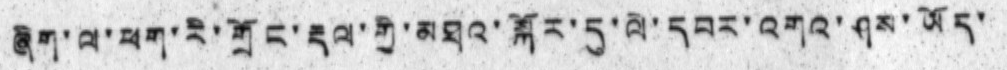ཞིག་ལ་ཕག་རི་གྲོང་རྡལ་གྱི་མཐའ་སྐོར་དུ་ལེ་དབར་འགའ་ཤས་ཡོད་
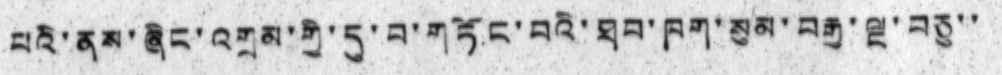པའི་ནས་ཞིང་འགྲམ་གྱི་དུ་བ་གཏོང་བའི་ཐབ་ཁག་སུམ་བརྒྱ་ལྔ་བཅུ་་
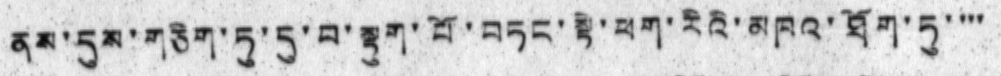ནས་དུས་གཅིག་ཏུ་དུ་བ་སྟུག་པོ་བཏང་སྟེ་ཕག་རིའི་མཁའ་ཐོག་ཏུ་་་་
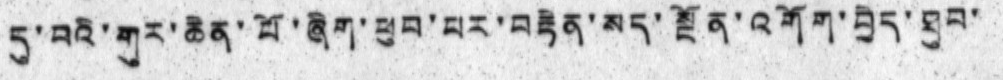དུ་བའི་གུར་ཆེན་པོ་ཞིག་ཕུབ་པར་བརྟེན་སད་སྔོན་འགོག་བྱེད་ཐུབ་
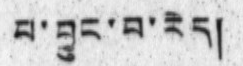བ་བྱུང་བ་རེད།
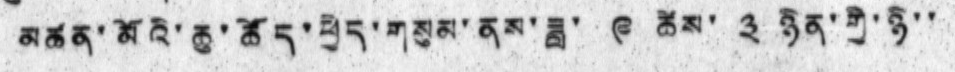མཚན་མོའི་ཆུ་ཚོད་ཕྱེད་གསུམ་ནས་ཟླ་ ༩ ཚེས་ ༣ ཉིན་གྱི་ཉི་་
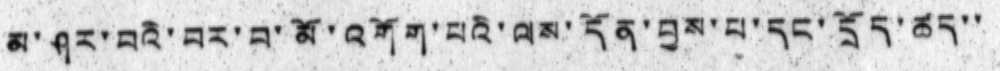བ་ཤར་བའི་བར་བ་མོ་འགོག་པའི་ལས་དོན་བྱས་པ་དང་དྲོད་ཚད་་
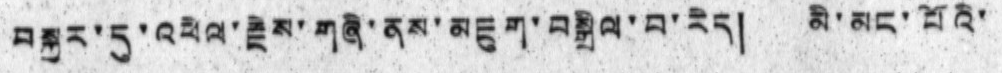བསྐྱར་དུ་འཕེལ་རྗེས་གཞི་ནས་མཇུག་བསྒྲིལ་བ་རེད། མི་མང་པོའི་
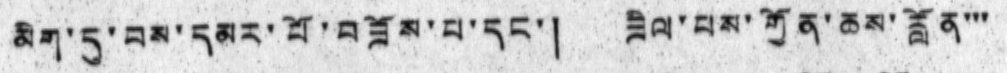མིག་དུ་བས་དམར་པོ་བཟོས་པ་དང་། ཟིལ་པས་གྱོན་ཆས་རློན་་་
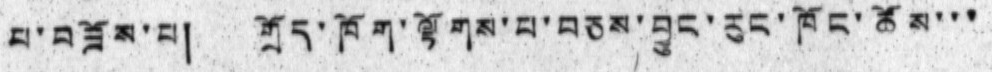པ་བཟོས་པ། གྲོད་ཁོག་ལྟོགས་པ་བཅས་བྱུང་རུང་ཁོང་ཚོས་་་
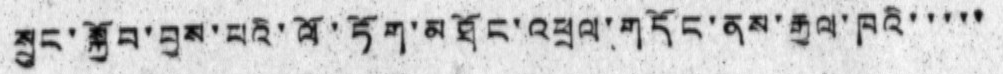སྲུང་སྐྱོབ་བྱས་པའི་ལོ་ཏོག་མཐོང་འཕྲལ་གདོང་ནས་རྒྱལ་ཁའི་་་་་
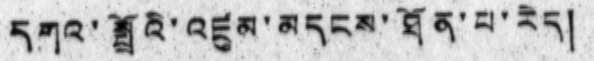དགའ་སྤྲོའི་འཛུམ་མདངས་ཐོན་པ་རེད།
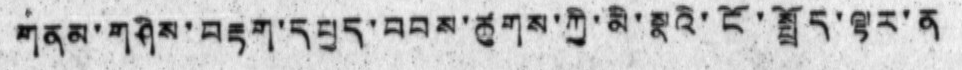གནམ་གཤིས་བརྟག་དཔྱད་བབས་ཚུགས་ཀྱི་མི་སྣའི་ངོ་སྤྲོད་ལྟར་ན
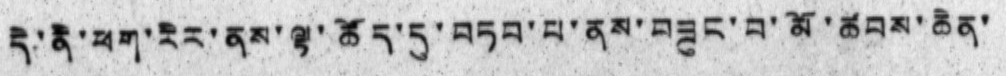དེ་ནི་ཕག་རིར་ནས་ལྟ་ཚོད་དུ་བཏབ་པ་ནས་བཟུང་བ་མོ་ཚབས་ཆེན་
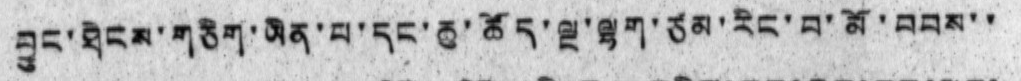བྱུང་ཐེངས་གཅིག་ཡིན་པ་དང་ཆུ་ཚོད་ལྔ་ལྷག་ཙམ་རིང་བ་མོ་བབས་་
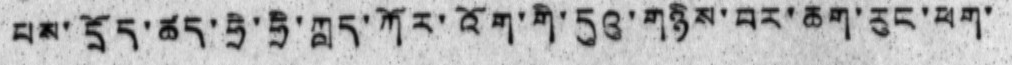པས་དྲོད་ཚད་ཧྲེ་ཧྲི་ཀླད་ཀོར་འོག་གི་དུའུ་གཉིས་བར་ཆག་རུང་ཕག་
